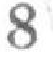8
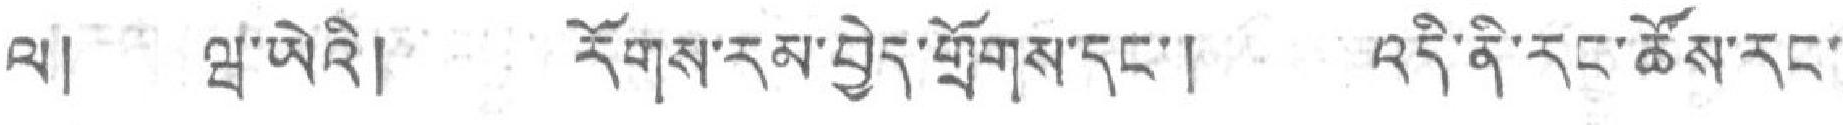ལ། ཝ་ཡེའི། རོགས་རམ་བྱེད་གྲོགས་དང་། འདི་ནི་རང་ཚོས་རང་
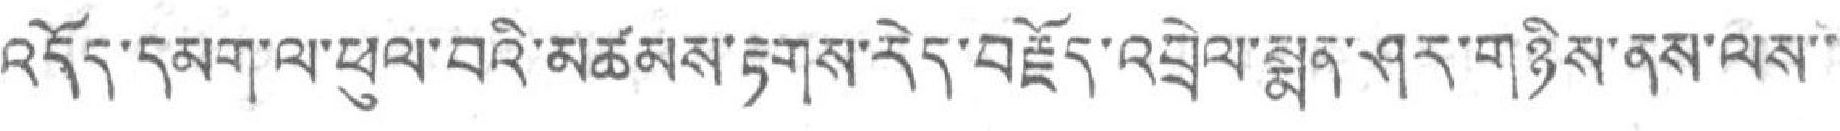འདོད་དམག་ལ་ཕུལ་བའི་མཚམས་རྟགས་རེད་བརྗོད་འབྲེལ་སྨན་ཤར་གཉིས་ནས་ལས་་
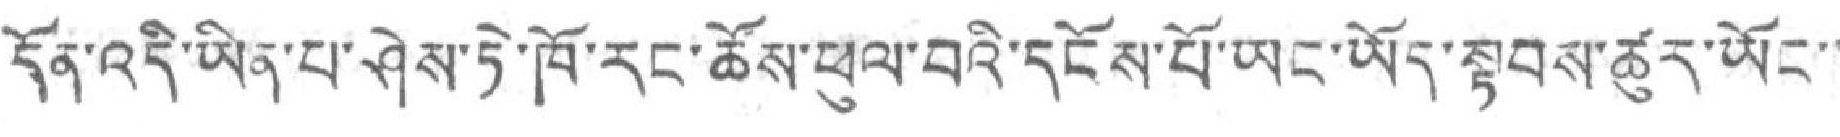དོན་འདི་ཡིན་པ་ཤེས་ཏེ་ཁོ་རང་ཚོས་ཕུལ་བའི་དངོས་པོ་ཡང་ཡོད་སྟབས་ཚུར་ཡོང་་
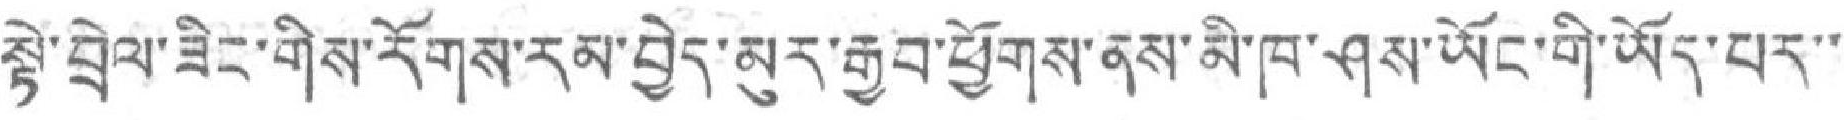སྟེ་བྲེལ་ཟིང་གིས་རོགས་རམ་བྱེད་མུར་རྒྱབ་ཕྱོགས་ནས་མི་ཁ་ཤས་ཡོང་གི་ཡོད་པར་་
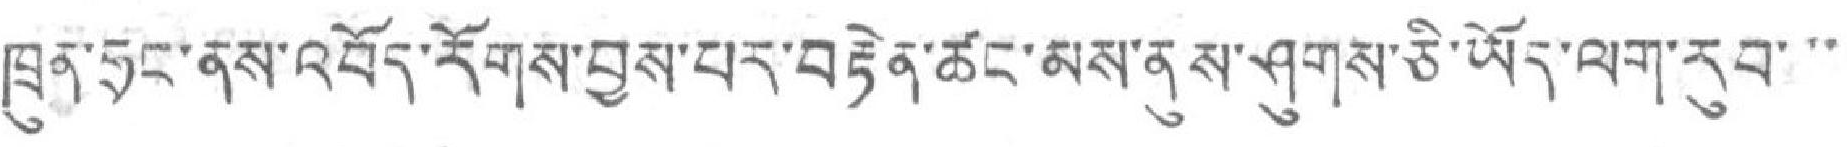ཁྲུན་ཧྲང་ནས་འབོད་རོགས་བྱས་པར་བརྟེན་ཚང་མས་ནུས་ཤུགས་ཅི་ཡོད་ལག་རུབ་་་
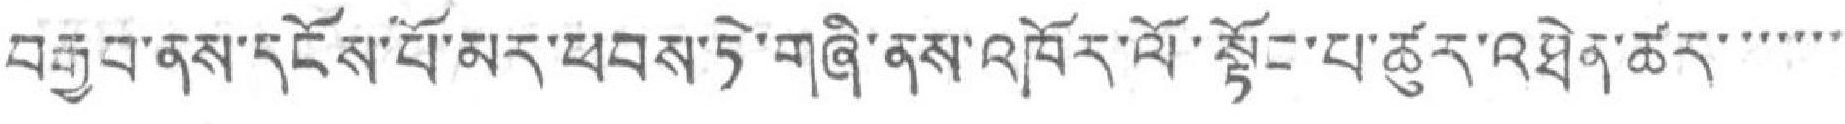བརྒྱབ་ནས་དངོས་པོ་མར་ཕབས་ཏེ་གཞི་ནས་འཁོར་ལོ་སྟོང་པ་ཚུར་འཐེན་ཚར་་་་་་་
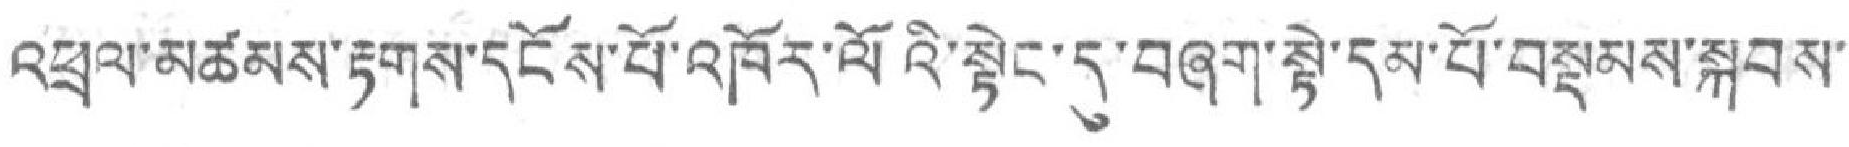འཕྲལ་མཚམས་རྟགས་དངོས་པོ་འཁོར་ལོའི་སྟེང་དུ་བཞག་སྟེ་དམ་པོ་བསྡམས་སྐབས་
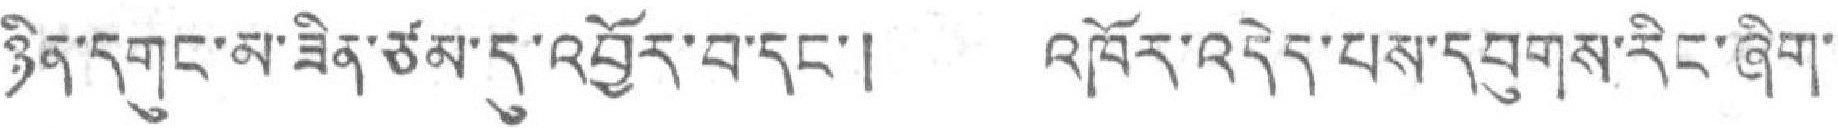ཉིན་དགུང་མ་ཟིན་ཙམ་དུ་འབྱོར་བ་དང་། འཁོར་འདེད་པས་དབུགས་རིང་ཞིག་
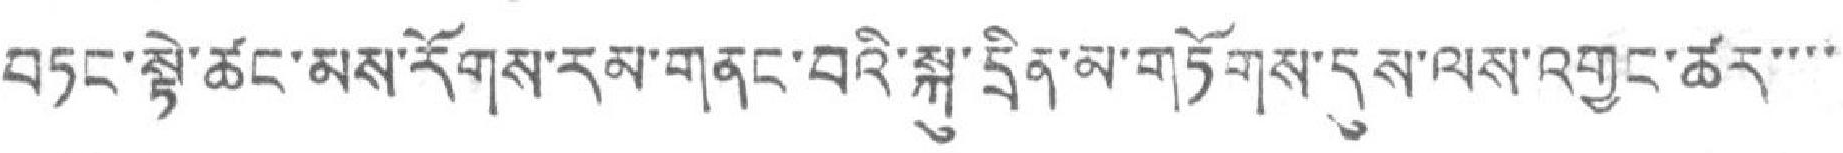བཏང་སྟེ་ཚང་མས་རོགས་རམ་གནང་བའི་སྐུ་དྲིན་མ་གཏོགས་དུས་ལས་འགྱང་ཚར་་་་་་
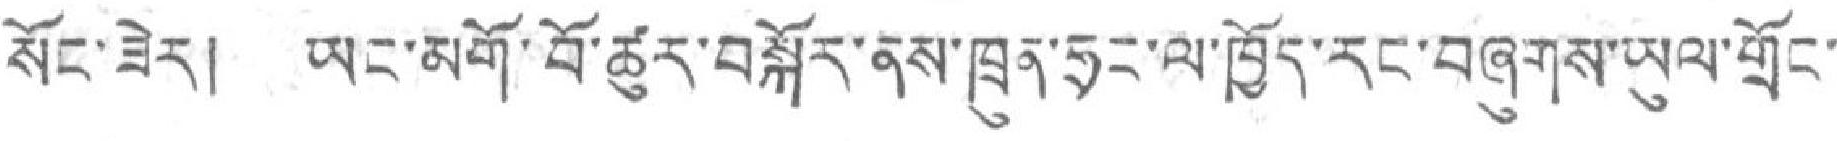སོང་ཟེར། ཡང་མགོ་བོ་ཚུར་བསྐོར་ནས་ཁྲུན་ཧྲང་ལ་ཁྱོད་རང་བཞུགས་ཡུལ་གྲོང་
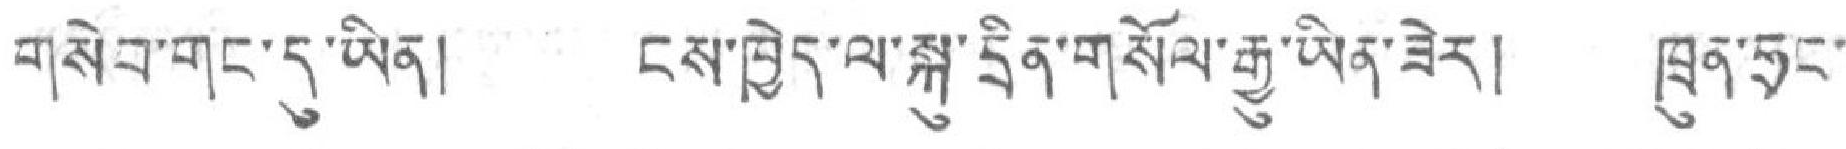གསེབ་གང་དུ་ཡིན། ངས་ཁྱེད་ལ་སྐུ་དྲིན་གསོལ་རྒྱུ་ཡིན་ཟེར། ཁྲུན་ཧྲང་
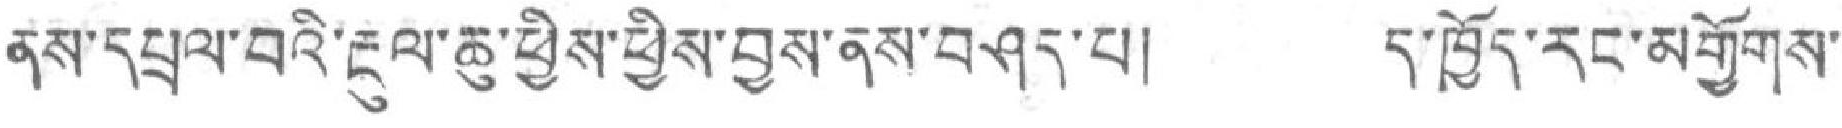ནས་དཔྲལ་བའི་རྔུལ་ཆུ་ཕྱིས་ཕྱིས་བྱས་ནས་བཤད་པ། ད་ཁྱོད་རང་མགྱོགས་
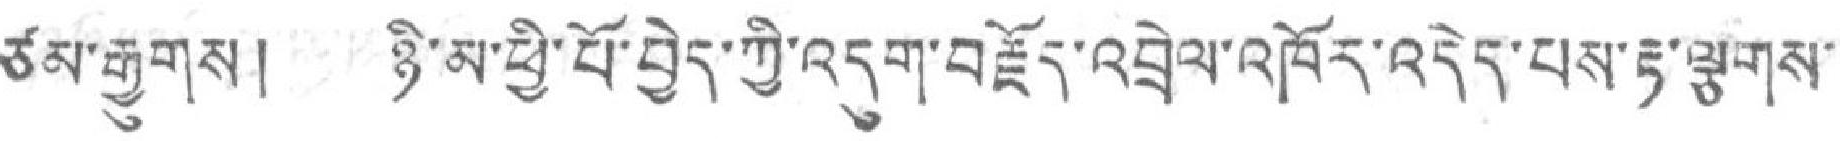ཙམ་རྒྱུགས། ཉི་མ་ཕྱི་པོ་བྱེད་ཀྱི་འདུག་བརྗོད་འབྲེལ་འཁོར་འདེད་པས་རྟ་ལྕགས་
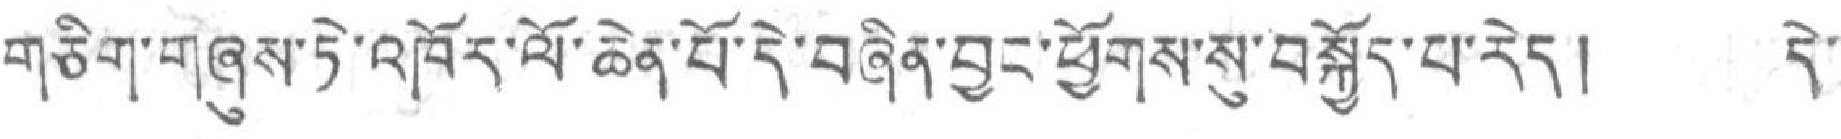གཅིག་གཞུས་ཏེ་འཁོར་ལོ་ཆེན་པོ་དེ་བཞིན་བྱང་ཕྱོགས་སུ་བསྐྱོད་པ་རེད། དེ་
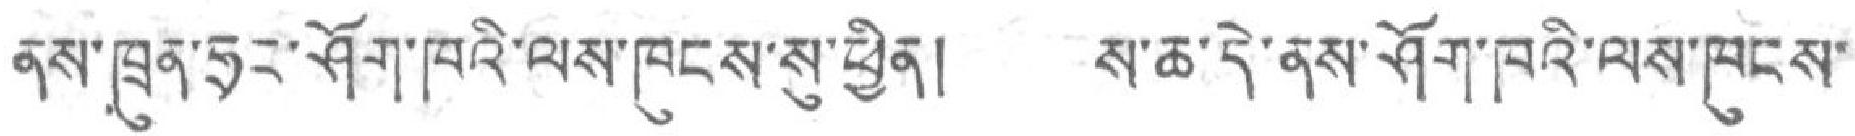ནས་ཁྲུན་ཧྲང་ཤོག་ཁའི་ལས་ཁུངས་སུ་ཕྱིན། ས་ཆ་དེ་ནས་ཤོག་ཁའི་ལས་ཁུངས་
